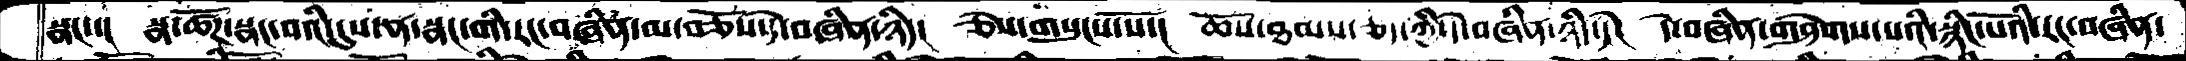སྣང་་།  སྣ་ཚོཌ་སྣང་བའི་དུས་ན་སྣང་གི་རང་བཞིན་མ་བཅོས་དེ་བཞིན་ཉིད།  ཅེས་གསུངས་སོ་།  ཆོས་ཐམས་ཅད་ཀྱི་དེ་བཞིན་ཉིད་དེ།  དེ་བཞིན་གཤེགས་པའི་སྙིང་པོའི་རང་བཞིན་
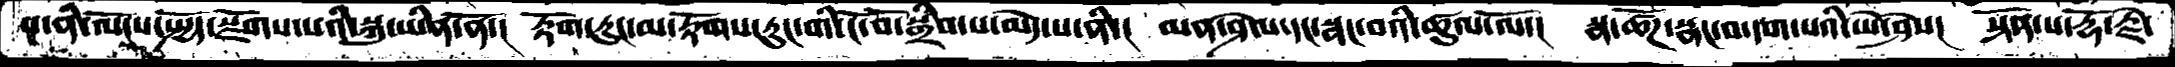སྔ་ནི་ལོངས་སྤྱོད་སྫོགས་པའི་སྐུ་ཡིན་ནོ་།   རྟོག་རུང་མ་རྟོགས་རུང་གི་ངོ་བོ་སྒྲིབ་པ་མེད་པ་ནི་།  མན་ཤེལ་དང་སྣང་བའི་ཚུལ་ལོ་།  སྣ་ཚོཌ་སྣང་བ་དག་པའི་ཡེ་ཤེས།  སྟོན་པ་རྡོ་རྗེ་
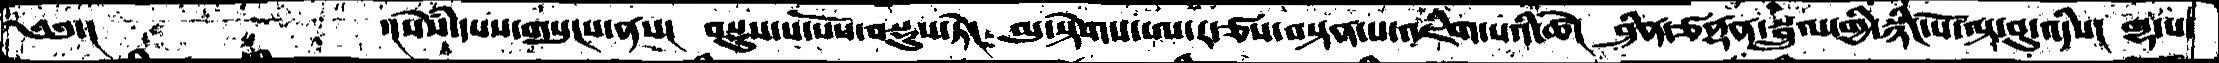༄༅་།      ་།སེཾས་དཔས་གསུངས་ནས།  བསྡུས་པ་པོས་བསྡུས་ཏེ།  མུ་སྟེགས་ཨ་ར་ཙས་བསྟན་པ་འཇིག་པའི་ཚེ།  ཤིན་ཙནྡན་སྦྲུལ་གྱི་སྙིང་པོ་ལྟ་བུ་འདིས།  གྷ་པ་
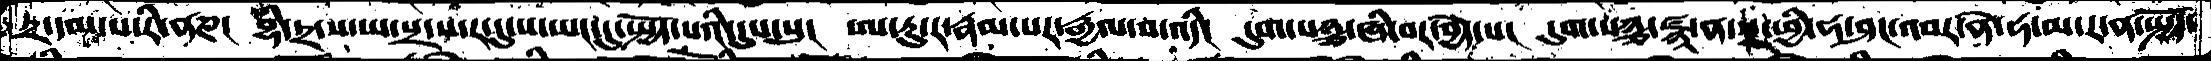ཏྲ་དམ་པ་རི་ནཎ།  བྷི་ཏྲ་ས་ཡ་སྲ་ས་ར་དུ་ས་ཡང་དུ་སྤྱོད་པའི་དུས་སུ།  ཨ་རུ་ར་རྣམ་པར་རྒྱལ་བ་འདི།  དུག་པཉྩ་ཞི་བར་བྱེད་པ།  དུག་པཉྩ་ཛྙ་ན་པྲ་ཕྱི་ཧ་ཤང་འབར་ནེ་ཧ་མ་ར་ན་སྤྱོད་
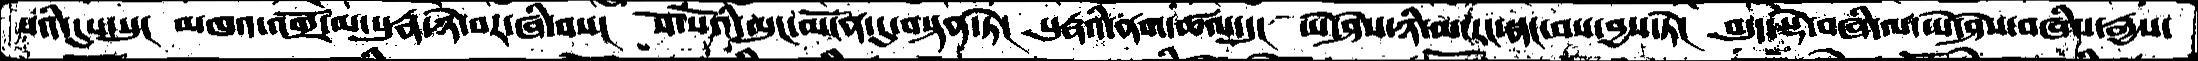པའི་དུས་སུ།  མཁའ་འགྲོ་མ་པུརྣ་ཉེ་བར་ཞི་བས།  སོ་སོའི་ལུང་མངོན་དུ་བསྟན་ཏེ།  པུརྣ་ནག་ཚལ་དུ།  ཡེ་ཤེས་ཉི་མ་རང་སྣང་བས་བྱས་ཏེ།  བདུད་སྟེ་བཞི་ལ་ཡེ་ཤེས་བཞིས་རྒྱས་
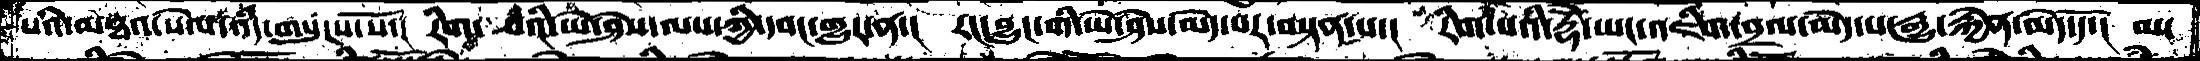པའི་མཐའ་སེལ་འདི་གསུངས་སོ་།  རིག་པའི་ཡེ་ཤེས་ལས་ཀྱི་དབང་གྱུར་ན་།  རང་བྱུང་གི་ཡེ་ཤེས་མེད་པར་བསྟན་པ་།  རིག་པའི་རྡོེ་ཡང་འཇིག་བྲལ་མེད་པ་རྒྱུ་རྐྱེན་མེད་དོ་།  མ་
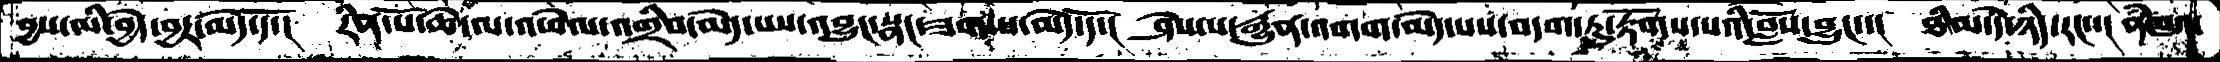བྱས་མི་བྱེད་བྱར་མེད་དོ་།  རིན་པོ་ཆེ་ལ་འཕེལ་འགྲིབ་མེད་པས་འབྱུང་སྣང་ཟག་པ་མེད་དོ་།  ཤེས་པ་རྒྱུན་འགག་མེད་པས་བདག་ཏུ་རྟོགས་པའི་བློས་བྱུང་།  ཐིམ་དེ་ཉིད་རང་་།  ནཾཁའ་
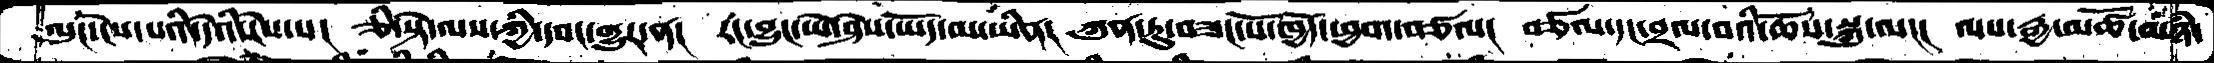ལུང་ངེས་པའི་དེའི་ངེས་པ།  ཅི་སྟེ་ལས་ཀྱི་དབང་གྱུར་ན།  རང་བྱུང་ཡེ་ཤེས་ཡོད་མ་ཡིན།  ཀུན་ཏུ་བཟང་པོ་ཁྱོད་ཕྱག་བཙལ།  བཙལ་དང་བྲལ་བའི་ཆོས་སྐུ་ལ།།།  ལས་རྒྱ་མཚོ་མཉཾ་
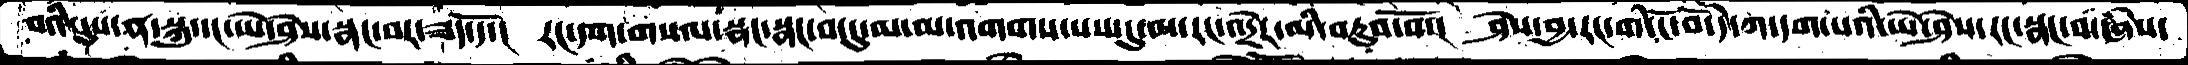བའི་དུས་ན་སྐུ་དང་ཡེ་ཤེས་སྣང་བར་ཟད་དོ་།  རང་དག་གསལ་སྣང་སྣང་བ་དུ་མ་མ་འགགས་པས་དུ་མ་རང་འདྲེར་མི་བཏུབ་བོ་།  ཤེས་བྱ་རང་གི་ངོ་བོ་ཀ་དག་པའི་ཡེ་ཤེས་རང་སྣང་བ་ཞེས་
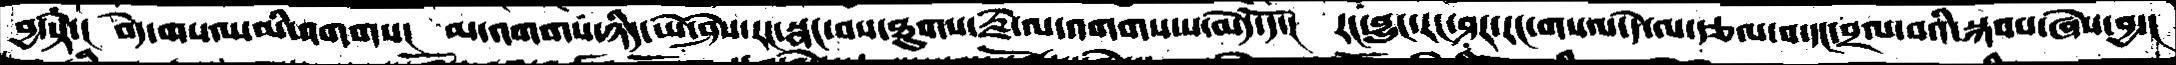བྱ་སྟེ་།   བདེ་གསལ་མི་འགགས།  མ་འགགས་ཉིད་ཡེ་ཤེས་རང་སྣང་བས་ཐུགས་རྗེ་ལ་འགགས་པ་མེད་དོ་།  རང་བྱུང་རང་ཤར་རང་གསལ་དེ་ལ་རྩལ་བ་དང་བྲལ་བའི་སྐབས་ཞེས་བྱ་།
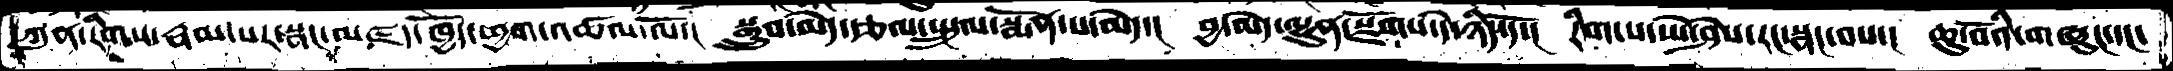ཀུན་རིགས་རྣམ་པར་སྣང་མཛད་ཁྱོད་ཕྱག་འཚལ་ལོ་།  སྒྲུབ་མེད་རྩལ་སྤྲུལ་སྨོན་པ་མེད་།  བྱ་མེད་ལྷུན་སྫོགས་དེ་ཉིད་དོ་།  རིག་པ་ཡེ་ཤེས་རང་སྣང་བས་།  ཆུ་བོའི་གཞུང་དང་
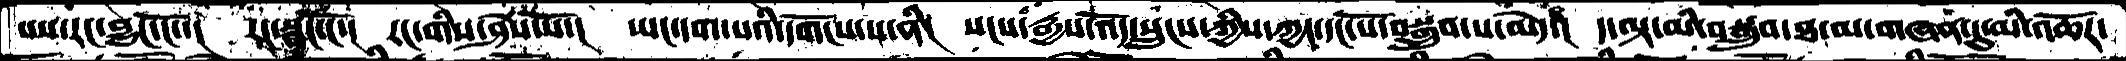པས་རང་བྱུང་ངོ་་།  རང་སྣང་ངོ་།  རང་གིས་ཤེས་སོ་།  ཡང་དག་པའི་དགོངས་པ་ནི།  སངས་རྒྱས་འོད་སྲུངས་ཀྱིས་ཀྱང་དང་པོ་བསྒྲུབ་པ་མེད་།  ད་ལྟ་མི་བསྒྲུབ་ཐ་མ་གཞན་དུ་མི་འཆོར་
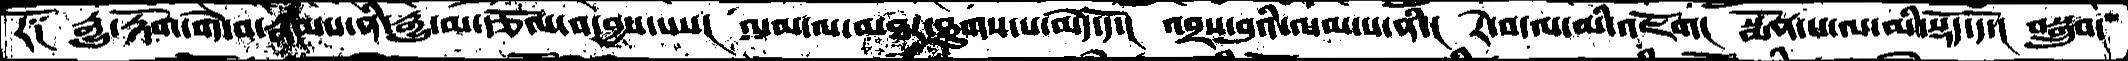རོ༑  རྒྱུ་རྟོག་གེ་བ་རྣམས་ནི་རྒྱུ་མ་རྩོལ་བ་བྱས་སཔ།  ལམ་ལ་མཐར་ཐུག་པ་མེད་དོ་།  འབྲས་བུའི་ལམ་པ་ནི་།  རེ་བ་ལ་མི་འཇོག།  སྨོན་པ་ལ་མི་སྡོད་དོ་།  བསྒྲུབ་
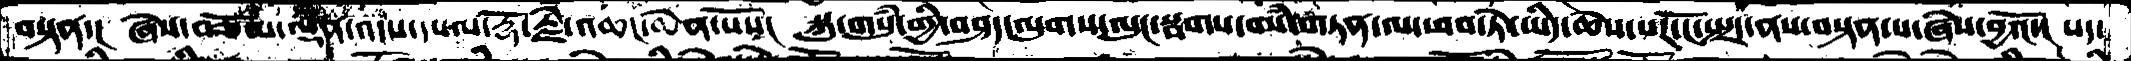བསྟན་།  ཞེས་བཅོམ་ལྡན་འདས་དཔལ་རྡོ་རྗེ་འཆང་ཆེན་པོས།  སྐུ་གསུཾ་གྱི་བཤད་ལུགས་ལུང་སྦགས་བསཾ་གཏན་ལ་ཕབ་ཏེ་ཡིད་ཆེས་པར་ངོ་སྤྲད་ནས་བསྟན་པ་ཞེས་བྱའོ་།  པད་
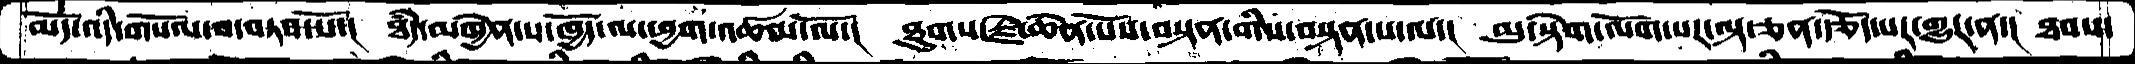མོད་འདི་གསོལ་བ་བཏབ་པོ་།  ཐཾད་མཁྱེན་པ་ཁྱོད་ལ་ཕྱག་འཚལ་ལོ་།  ཐུགས་རྗེ་ཆེན་པོས་བསྟན་གིས་བསྟན་པ་ལ་།  མུ་སྟེག་ལོག་པར་ལྟ་ཅན་རྩོད་པར་གྱུར་ན་།  ཐབས་
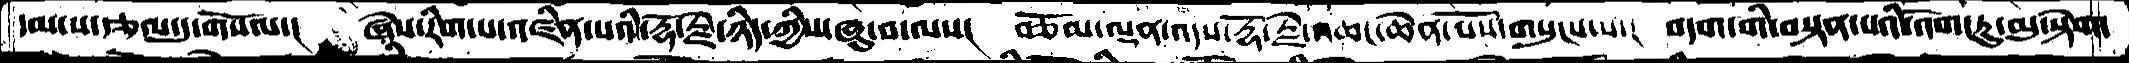དམ་པ་རྩལ་དུ་གསོལ་།  ཞེས་རིག་པ་འཛིན་པའི་རྡོ་རྗེ་ཉིད་ཀྱིས་ཞུ་བ་ལས།  མཅོམ་ལྡན་འདས་རྡོ་རྗེ་འཆང་ཆེན་པོས་གསུངས་པ་།  བདག་གི་བསྟན་པའི་འོག་ཏུ་མུ་སྟེག་
